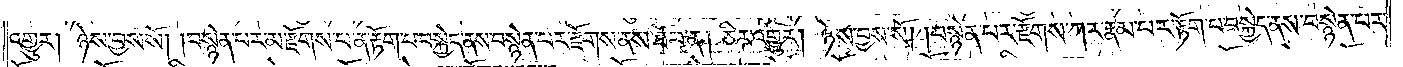འགྱུར། ཉེས་བྱས་སོ། །བསྙེན་པར་མ་རྫོགས་པ་ན་རྟོག་པ་བསྐྱེད་ནས་བསྙེན་པར་རྫོགས་ནས་ཐོབ་ན། ཅིར་འགྱུར། ཉེས་བྱས་སོ། །བསྙེན་པར་རྫོགས་ཀར་རྣམ་པར་རྟོག་པ་བསྐྱེད་ནས་བསྙེན་པར་
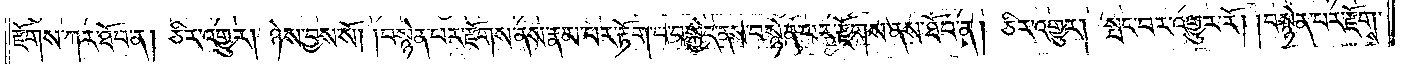རྫོགས་ཀར་ཐོབ་ན། ཅིར་འགྱུར། ཉེས་བྱས་སོ། །བསྙེན་པར་རྫོགས་ནས་རྣམ་པར་རྟོག་པ་བསྐྱེད་ནས་བསྙེན་པར་རྫོགས་ནས་ཐོབ་ན། ཅིར་འགྱུར། སྤང་བར་འགྱུར་རོ། །བསྙེན་པར་རྫོགས་
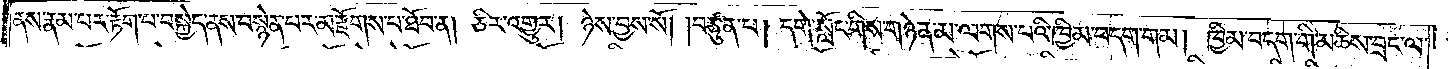ནས་རྣམ་པར་རྟོག་པ་བསྐྱེད་ནས་བསྙེན་པར་མ་རྫོགས་པ་ཐོབ་ན། ཅིར་འགྱུར། ཉེས་བྱས་སོ། །བཙུན་པ། དགེ་སློང་གིས་གཉེན་མ་ལགས་པའི་ཁྱིམ་བདག་གམ། ཁྱིམ་བདག་གི་མཆིས་བྲང་ལ་
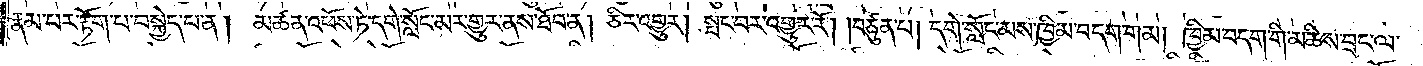རྣམ་པར་རྟོག་པ་བསྐྱེད་པ་ན། མཚན་འཕོས་ཏེ་དགེ་སློང་མར་གྱུར་ནས་ཐོབ་ན། ཅིར་འགྱུར། སྤང་བར་འགྱུར་རོ། །བཙུན་པ། དགེ་སློང་མས་ཁྱིམ་བདག་གམ། ཁྱིམ་བདག་གི་མཆིས་བྲང་ལ་
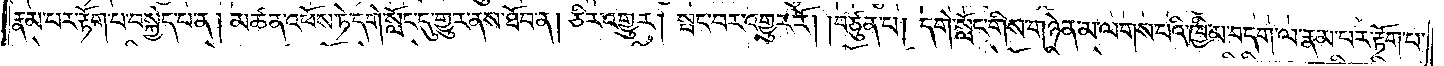རྣམ་པར་རྟོག་པ་བསྐྱེད་པ་ན། མཚན་འཕོས་ཏེ་དགེ་སློང་དུ་གྱུར་ནས་ཐོབ་ན། ཅིར་འགྱུར། སྤང་བར་འགྱུར་རོ། །བཙུན་པ། དགེ་སློང་གིས་གཉེན་མ་ལགས་པའི་ཁྱིམ་བདག་ལ་རྣམ་པར་རྟོག་པ་
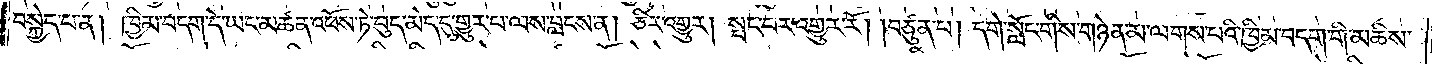བསྐྱེད་པ་ན། ཁྱིམ་བདག་དེ་ཡང་མཚན་འཕོས་ཏེ་བུད་མེད་དུ་གྱུར་པ་ལས་བླངས་ན། ཅིར་འགྱུར། སྤང་བར་འགྱུར་རོ། །བཙུན་པ། དགེ་སློང་གིས་གཉེན་མ་ལགས་པའི་ཁྱིམ་བདག་གི་མཆིས་
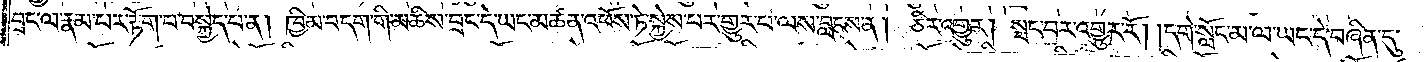བྲང་ལ་རྣམ་པར་རྟོག་པ་བསྐྱེད་པ་ན། ཁྱིམ་བདག་གི་མཆིས་བྲང་དེ་ཡང་མཚན་འཕོས་ཏེ་སྐྱེས་པར་གྱུར་པ་ལས་བླངས་ན། ཅིར་འགྱུར། སྤང་བར་འགྱུར་རོ། །དགེ་སློང་མ་ལ་ཡང་དེ་བཞིན་དུ་
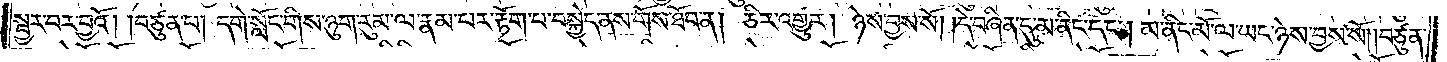སྦྱར་བར་བྱའོ། །བཙུན་པ། དགེ་སློང་གིས་ཉུག་རུམ་ལ་རྣམ་པར་རྟོག་པ་བསྐྱེད་ནས་གོས་ཐོབ་ན། ཅིར་འགྱུར། ཉེས་བྱས་སོ། །དེ་བཞིན་དུ་མ་ནིང་དང༌། མ་ནིང་མོ་ལ་ཡང་ཉེས་བྱས་སོ། །བཙུན་
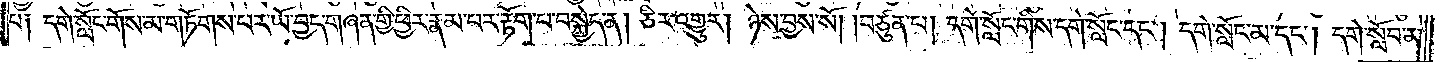པ༑ དགེ་སློང་གོས་མ་གཏོགས་པར་ཡོ་བྱད་གཞན་གྱི་ཕྱིར་རྣམ་པར་རྟོག་པ་བསྐྱེད་ན། ཅིར་འགྱུར། ཉེས་བྱས་སོ། །བཙུན་པ། དགེ་སློང་གིས་དགེ་སློང་དང༌། དགེ་སློང་མ་དང༌། དགེ་སློབ་མ་
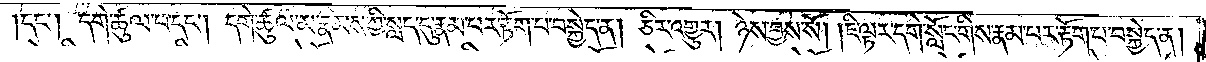།དང༌། དགེ་ཚུལ་ཕ་དང༌། དགེ་ཚུལ་མ་རྣམས་ཀྱི་སླད་དུ་རྣམ་པར་རྟོག་པ་བསྐྱེད་ན། ཅིར་འགྱུར། ཉེས་བྱས་སོ། །ཇི་ལྟར་དགེ་སློང་གིས་རྣམ་པར་རྟོག་པ་བསྐྱེད་ན།
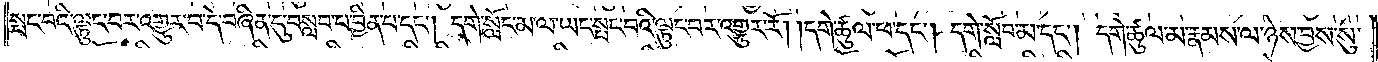སྤང་བའི་ལྟུང་བར་འགྱུར་བ་དེ་བཞིན་དུ་བསླབ་པ་བྱིན་པ་དང༌། དགེ་སློང་མ་ལ་ཡང་སྤང་བའི་ལྟུང་བར་འགྱུར་རོ། །དགེ་ཚུལ་ཕ་དང༌། དགེ་སློབ་མ་དང༌། དགེ་ཚུལ་མ་རྣམས་ལ་ཉེས་བྱས་སུ་
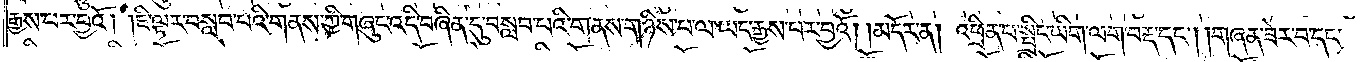རྒྱས་པར་བྱའོ། །ཇི་ལྟར་བསླབ་པའི་གནས་ཀྱི་གཞུང་འདི་བཞིན་དུ་བསླབ་པའི་གནས་གཉིས་པ་ལ་ཡང་རྒྱས་པར་བྱའོ།    །མདོར་ན། འཕྲིན་པ་སྤྲིང་ཡིག་ལག་བརྡ་དང༌། །གཞན་ཟེར་བ་དང་
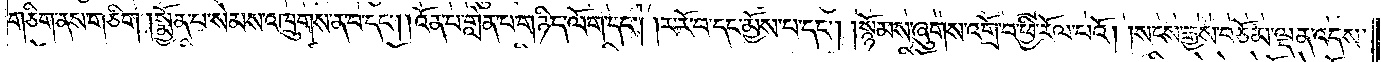གཅིག་ནས་གཅིག །སྨྱོན་པ་སེམས་འཁྲུགས་ན་བ་དང༌། །འོན་པ་གླེན་པ་གཉིད་ལོག་དང༌། །ར་རོ་བ་དང་མྱོས་པ་དང༌། །སྙོམས་ཞུགས་འགྲོ་བ་ཕྱི་རོལ་པའོ། །སངས་རྒྱས་བཅོམ་ལྡན་འདས་
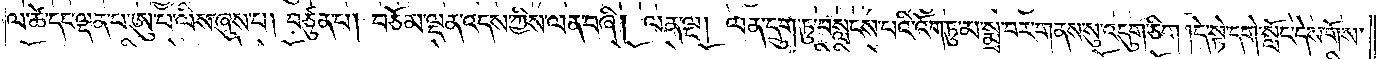ལ་ཚེ་དང་ལྡན་པ་ཨུ་པ་ལིས་ཞུས་པ། བཙུན་པ། བཅོམ་ལྡན་འདས་ཀྱིས་ལན་བཞི། ལན་ལྔ། ལན་དྲུག་ཏུ་བསླངས་པའི་འོག་ཏུ་མ་སྨྲ་བར་གནས་སུ་འདུག་ཅིག །དེ་སྟེ་དགེ་སློང་དེས་གོས་
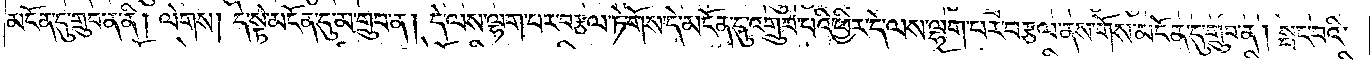མངོན་དུ་གྲུབ་ན་ནི། ལེགས། དེ་སྟེ་མངོན་དུ་མ་གྲུབ་ན། དེ་ལས་ལྷག་པར་བརྩལ་ཏེ་གོས་དེ་མངོན་དུ་འགྲུབ་པའི་ཕྱིར་དེ་ལས་ལྷག་པར་བརྩལ་ནས་གོས་མངོན་དུ་གྲུབ་ན། སྤང་བའི་
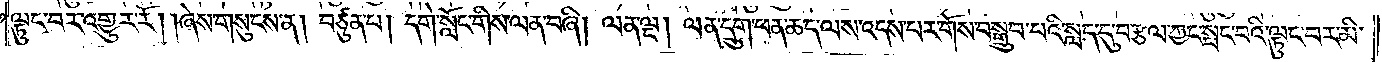ལྟུང་བར་འགྱུར་རོ། །ཞེས་གསུངས་ན། བཙུན་པ། དགེ་སློང་གིས་ལན་བཞི། ལན་ལྔ། ལན་དྲུག་ཕན་ཆད་ལས་འདས་པར་གོས་བསྒྲུབ་པའི་སླད་དུ་བརྩལ་ཀྱང་སྤང་བའི་ལྟུང་བར་མི་
